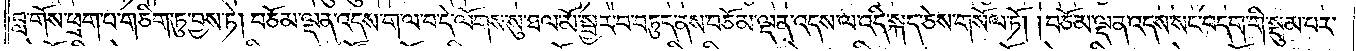བླ་གོས་ཕྲག་པ་གཅིག་ཏུ་བྱས་ཏེ། བཅོམ་ལྡན་འདས་ག་ལ་བ་དེ་ལོགས་སུ་ཐལ་མོ་སྦྱར་བ་བཏུད་ནས་བཅོམ་ལྡན་འདས་ལ་འདི་སྐད་ཅེས་གསོལ་ཏོ། །བཅོམ་ལྡན་འདས་སང་བདག་གི་སྡུམ་པར་
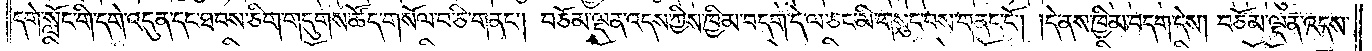དགེ་སློང་གི་དགེ་འདུན་དང་ཐབས་ཅིག་གདུགས་ཚོད་གསོལ་བ་ཅི་གནང༌། བཅོམ་ལྡན་འདས་ཀྱིས་ཁྱིམ་བདག་དེ་ལ་ཅང་མི་གསུང་བས་གནང་ངོ༌། །དེ་ནས་ཁྱིམ་བདག་དེས། བཅོམ་ལྡན་འདས་
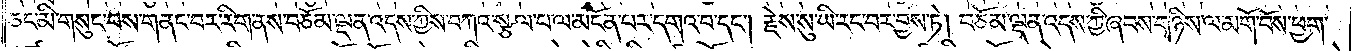ཅང་མི་གསུང་བས་གནང་བར་རིག་ནས་བཅོམ་ལྡན་འདས་ཀྱིས་བཀའ་སྩལ་པ་ལ་མངོན་པར་དགའ་བ་དང༌། རྗེས་སུ་ཡི་རང་བར་བྱས་ཏེ། བཅོམ་ལྡན་འདས་ཀྱི་ཞབས་གཉིས་ལ་མགོ་བོས་ཕྱག་
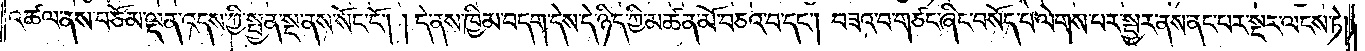འཚལ་ནས་བཅོམ་ལྡན་འདས་ཀྱི་སྤྱན་སྔ་ནས་སོང་ངོ༌། །དེ་ནས་ཁྱིམ་བདག་དེས་དེ་ཉིད་ཀྱི་མཚན་མོ་བཅའ་བ་དང༌། བཟའ་བ་གཙང་ཞིང་བསོད་པ་ལེགས་པར་སྦྱར་ནས་ནང་པར་སྔར་ལངས་ཏེ།
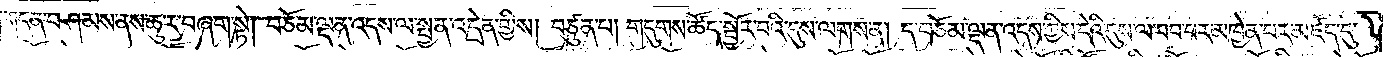གདན་བཤམས་ནས་ཆུ་ར་བཞག་སྟེ། བཅོམ་ལྡན་འདས་ལ་སྤྱན་འདྲེན་གྱིས། བཙུན་པ། གདུགས་ཚོད་སྦྱོར་བའི་དུས་ལགས་ན། ད་བཅོམ་ལྡན་འདས་ཀྱིས་དེའི་དུས་ལ་བབ་པར་མཁྱེན་པར་མཛད་དུ་
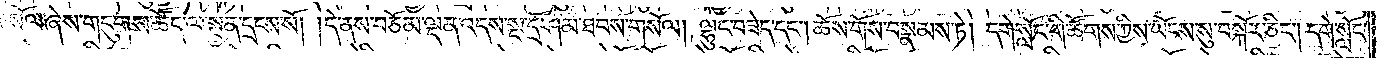གསོལ་ཞེས་གདུགས་ཚོད་ལ་སྤྱན་དྲངས་སོ། །དེ་ནས་བཅོམ་ལྡན་འདས་སྔ་དྲོ་ཤམ་ཐབས་གསོལ། ལྷུང་བཟེད་དང༌། ཆོས་གོས་བསྣམས་ཏེ། དགེ་སློང་གི་ཚོགས་ཀྱིས་ཡོངས་སུ་བསྐོར་ཅིང༌། དགེ་སློང་
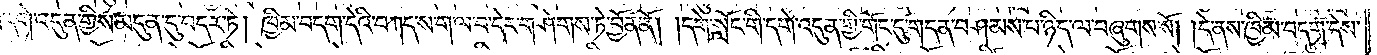གི་དགེ་འདུན་གྱིས་མདུན་དུ་བདར་ཏེ། ཁྱིམ་བདག་དེའི་བཀད་ས་ག་ལ་བ་དེར་གཤེགས་ཏེ་བྱོན་ནོ། །དགེ་སློང་གི་དགེ་འདུན་གྱི་གོང་དུ་གདན་བཤམས་པ་ཉིད་ལ་བཞུགས་སོ། །དེ་ནས་ཁྱིམ་བདག་དེས་
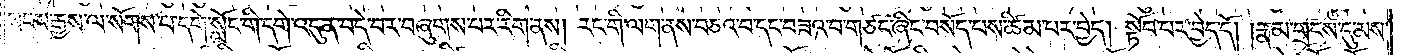སངས་རྒྱས་ལ་སོགས་པ་དགེ་སློང་གི་དགེ་འདུན་བདེ་བར་བཞུགས་པར་རིག་ནས། རང་གི་ལག་ནས་བཅའ་བ་དང་བཟའ་བ་གཙང་ཞིང་བསོད་པས་ཚིམ་པར་བྱེད། སྟོབ་པར་བྱེད་དོ། །རྣམ་གྲངས་དུ་མས་
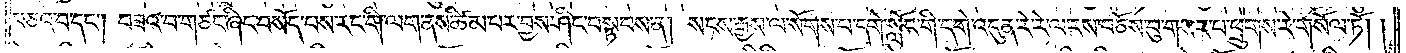བཅའ་བ་དང༌། བཟའ་བ་གཙང་ཞིང་བསོད་པས་རང་གི་ལག་ནས་ཚིམ་པར་བྱས་ཤིང་བསྟབས་ན། སངས་རྒྱས་ལ་སོགས་པ་དགེ་སློང་གི་དགེ་འདུན་རེ་རེ་ལ་རས་བཅོས་བུ་གསར་པ་ཕྲུགས་རེ་གསོལ་ཏོ། །
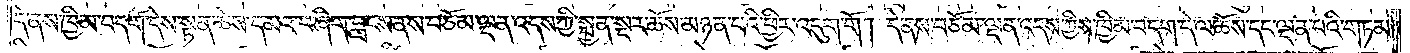དེ་ནས་ཁྱིམ་བདག་དེས་སྟན་ཆེས་དམའ་བ་ཞིག་བླངས་ནས་བཅོམ་ལྡན་འདས་ཀྱི་སྤྱན་སྔར་ཆོས་མཉན་པའི་ཕྱིར་འདུག་གོ། དེ་ནས་བཅོམ་ལྡན་འདས་ཀྱིས་ཁྱིམ་བདག་དེ་ལ་ཆོས་དང་ལྡན་པའི་གཏམ་
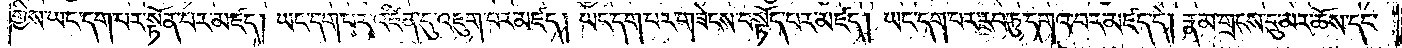གྱིས་ཡང་དག་པར་སྟོན་པར་མཛད། ཡང་དག་པར་འཛིན་དུ་འཇུག་པར་མཛད། ཡང་དག་པར་གཟེངས་བསྟོད་པར་མཛད། ཡང་དག་པར་རབ་ཏུ་དགའ་བར་མཛད་དེ། རྣམ་གྲངས་དུ་མར་ཆོས་དང་
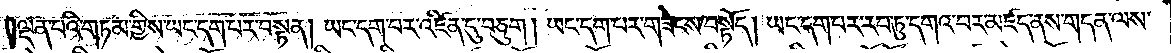ལྡན་པའི་གཏམ་གྱིས་ཡང་དག་པར་བསྟན། ཡང་དག་པར་འཛིན་དུ་བཅུག །ཡང་དག་པར་གཟེངས་བསྟོད། ཡང་དག་པར་རབ་ཏུ་དགའ་བར་མཛད་ནས་གདན་ལས་
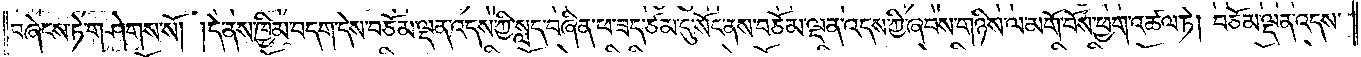བཞེངས་ཏེ་གཤེགས་སོ། །དེ་ནས་ཁྱིམ་བདག་དེས་བཅོམ་ལྡན་འདས་ཀྱི་སླད་བཞིན་ཕ་ཟད་ཙམ་དུ་སོང་ནས་བཅོམ་ལྡན་འདས་ཀྱི་ཞབས་གཉིས་ལ་མགོ་བོས་ཕྱག་འཚལ་ཏེ། བཅོམ་ལྡན་འདས་
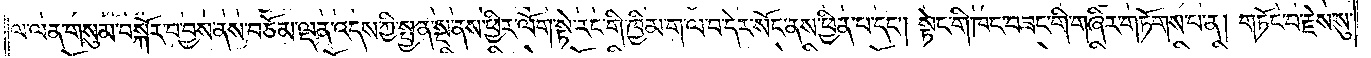ལ་ལན་གསུམ་བསྐོར་བ་བྱས་ནས་བཅོམ་ལྡན་འདས་ཀྱི་སྤྱན་སྔ་ནས་ཕྱིར་ལོག་སྟེ་རང་གི་ཁྱིམ་ག་ལ་བ་དེར་སོང་ནས་ཕྱིན་པ་དང༌། སྟེང་གི་ཁང་བཟང་གི་གཞིར་གཏོགས་པ་ན། གཏོང་བ་རྗེས་སུ་
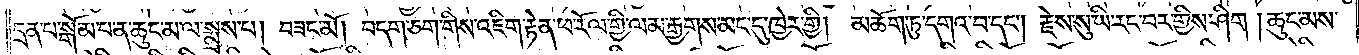དྲན་པ་སྒོམ་པ་ན་ཆུང་མ་ལ་སྨྲས་པ། བཟང་མོ། བདག་ཅག་གིས་འཇིག་རྟེན་ཕ་རོལ་གྱི་ལམ་རྒྱགས་མང་དུ་ཁྱེར་གྱི། མཆོག་ཏུ་དགའ་བ་དང༌། རྗེས་སུ་ཡི་རང་བར་གྱིས་ཤིག །ཆུང་མས་
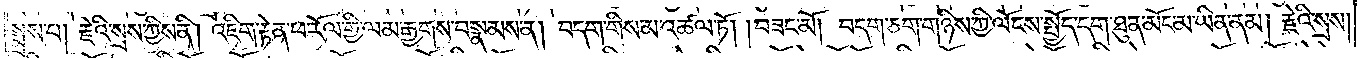སྨྲས་པ། རྗེའི་སྲས་ཀྱིས་ནི། འཇིག་རྟེན་ཕ་རོལ་གྱི་ལམ་རྒྱགས་བསྣམས་ན། བདག་གིས་མ་འཚལ་ཏོ། །བཟང་མོ། བདག་ཅག་གཉིས་ཀྱི་ལོངས་སྤྱོད་དག་ཐུན་མོང་མ་ཡིན་ནམ། རྗེའི་སྲས།
